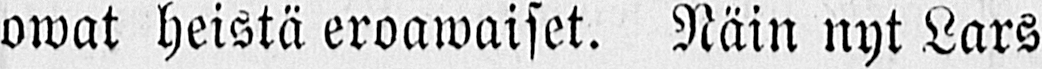owat heistä eroawaiset. Näin nyt Lars
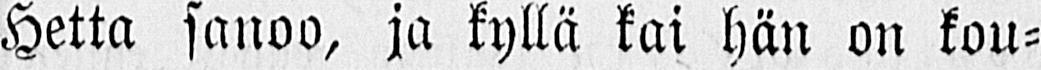Hetta sanoo, ja kyllä kai hän on kou-
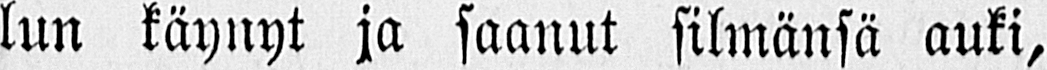lun käynyt ja saanut silmänsä auki,
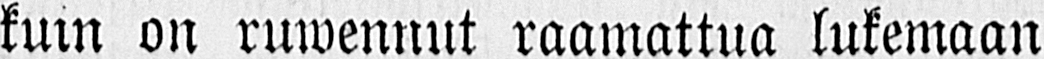kuin on ruwennut raamattua lukemaan
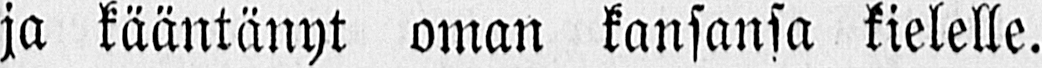ja kääntänyt oman kansansa kielelle.
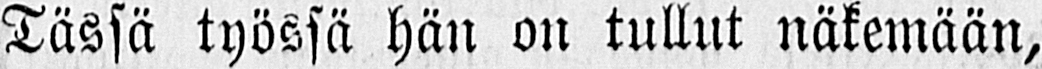Tässä työssä hän on tullut näkemään,
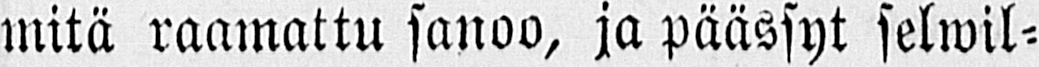mitä raamattu sanoo, ja päässyt selwil-
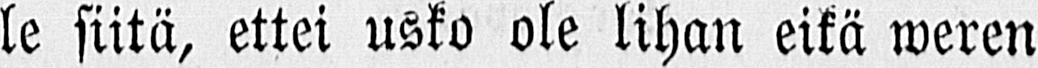le siitä, ettei usko ole lihan eikä weren
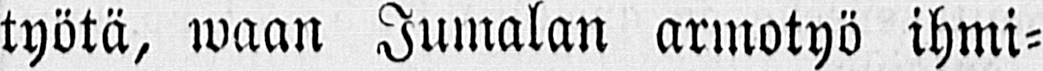työtä, waan Jumalan armotyö ihmi-
